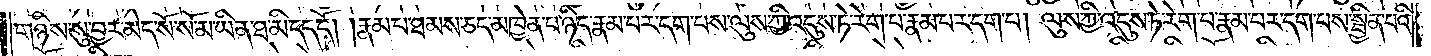གཉིས་སུ་བྱར་མེད་སོ་སོ་མ་ཡིན་ཐ་མི་དད་དོ། །རྣམ་པ་ཐམས་ཅད་མཁྱེན་པ་ཉིད་རྣམ་པར་དག་པས་ལུས་ཀྱི་འདུས་ཏེ་རེག་པ་རྣམ་པར་དག་པ། ལུས་ཀྱི་འདུས་ཏེ་རེག་པ་རྣམ་པར་དག་པས་སྦྱིན་པའི་
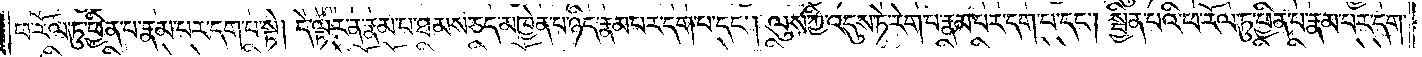ཕ་རོལ་ཏུ་ཕྱིན་པ་རྣམ་པར་དག་པ་སྟེ། དེ་ལྟར་ན་རྣམ་པ་ཐམས་ཅད་མཁྱེན་པ་ཉིད་རྣམ་པར་དག་པ་དང༌། ལུས་ཀྱི་འདུས་ཏེ་རེག་པ་རྣམ་པར་དག་པ་དང༌། སྦྱིན་པའི་ཕ་རོལ་ཏུ་ཕྱིན་པ་རྣམ་པར་དག་
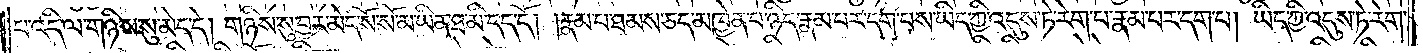པ་འདི་ལ་གཉིས་སུ་མེད་དེ། གཉིས་སུ་བྱར་མེད་སོ་སོ་མ་ཡིན་ཐ་མི་དད་དོ། །རྣམ་པ་ཐམས་ཅད་མཁྱེན་པ་ཉིད་རྣམ་པར་དག་པས་ཡིད་ཀྱི་འདུས་ཏེ་རེག་པ་རྣམ་པར་དག་པ། ཡིད་ཀྱི་འདུས་ཏེ་རེག་
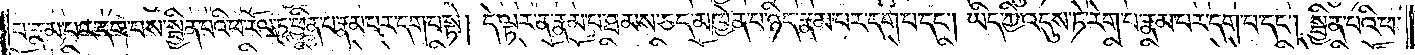པ་རྣམ་པར་དག་པས་སྦྱིན་པའི་ཕ་རོལ་ཏུ་ཕྱིན་པ་རྣམ་པར་དག་པ་སྟེ། དེ་ལྟར་ན་རྣམ་པ་ཐམས་ཅད་མཁྱེན་པ་ཉིད་རྣམ་པར་དག་པ་དང༌། ཡིད་ཀྱི་འདུས་ཏེ་རེག་པ་རྣམ་པར་དག་པ་དང༌། སྦྱིན་པའི་ཕ་
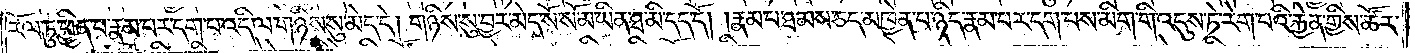རོལ་ཏུ་ཕྱིན་པ་རྣམ་པར་དག་པ་འདི་ལ་གཉིས་སུ་མེད་དེ། གཉིས་སུ་བྱར་མེད་སོ་སོ་མ་ཡིན་ཐ་མི་དད་དོ། །རྣམ་པ་ཐམས་ཅད་མཁྱེན་པ་ཉིད་རྣམ་པར་དག་པས་མིག་གི་འདུས་ཏེ་རེག་པའི་རྐྱེན་གྱིས་ཚོར་
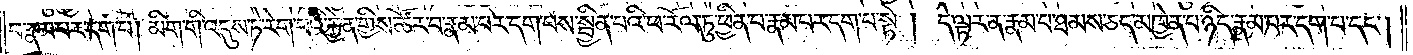བ་རྣམ་པར་དག་པ། མིག་གི་འདུས་ཏེ་རེག་པའི་རྐྱེན་གྱིས་ཚོར་བ་རྣམ་པར་དག་པས་སྦྱིན་པའི་ཕ་རོལ་ཏུ་ཕྱིན་པ་རྣམ་པར་དག་པ་སྟེ། དེ་ལྟར་ན་རྣམ་པ་ཐམས་ཅད་མཁྱེན་པ་ཉིད་རྣམ་པར་དག་པ་དང༌།
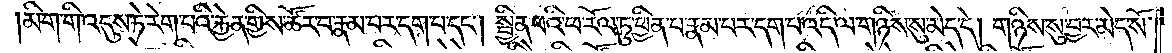མིག་གི་འདུས་ཏེ་རེག་པའི་རྐྱེན་གྱིས་ཚོར་བ་རྣམ་པར་དག་པ་དང༌། སྦྱིན་པའི་ཕ་རོལ་ཏུ་ཕྱིན་པ་རྣམ་པར་དག་པ་འདི་ལ་གཉིས་སུ་མེད་དེ། གཉིས་སུ་བྱར་མེད་སོ་
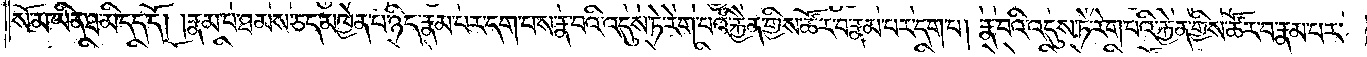སོ་མ་ཡིན་ཐ་མི་དད་དོ། །རྣམ་པ་ཐམས་ཅད་མཁྱེན་པ་ཉིད་རྣམ་པར་དག་པས་རྣ་བའི་འདུས་ཏེ་རེག་པའི་རྐྱེན་གྱིས་ཚོར་བ་རྣམ་པར་དག་པ། རྣ་བའི་འདུས་ཏེ་རེག་པའི་རྐྱེན་གྱིས་ཚོར་བ་རྣམ་པར་
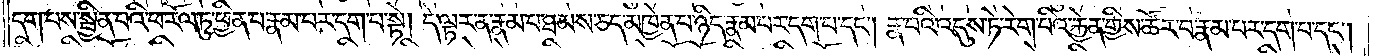དག་པས་སྦྱིན་པའི་ཕ་རོལ་ཏུ་ཕྱིན་པ་རྣམ་པར་དག་པ་སྟེ། དེ་ལྟར་ན་རྣམ་པ་ཐམས་ཅད་མཁྱེན་པ་ཉིད་རྣམ་པར་དག་པ་དང༌། རྣ་བའི་འདུས་ཏེ་རེག་པའི་རྐྱེན་གྱིས་ཚོར་བ་རྣམ་པར་དག་པ་དང༌།
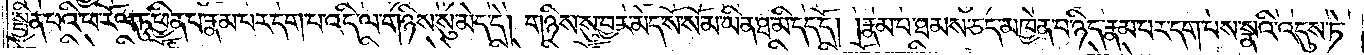སྦྱིན་པའི་ཕ་རོལ་ཏུ་ཕྱིན་པ་རྣམ་པར་དག་པ་འདི་ལ་གཉིས་སུ་མེད་དེ། གཉིས་སུ་བྱར་མེད་སོ་སོ་མ་ཡིན་ཐ་མི་དད་དོ། །རྣམ་པ་ཐམས་ཅད་མཁྱེན་པ་ཉིད་རྣམ་པར་དག་པས་སྣའི་འདུས་ཏེ་
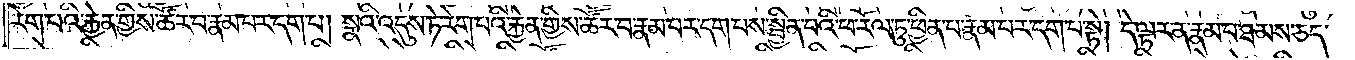རེག་པའི་རྐྱེན་གྱིས་ཚོར་བ་རྣམ་པར་དག་པ། སྣའི་འདུས་ཏེ་རེག་པའི་རྐྱེན་གྱིས་ཚོར་བ་རྣམ་པར་དག་པས་སྦྱིན་པའི་ཕ་རོལ་ཏུ་ཕྱིན་པ་རྣམ་པར་དག་པ་སྟེ། དེ་ལྟར་ན་རྣམ་པ་ཐམས་ཅད་
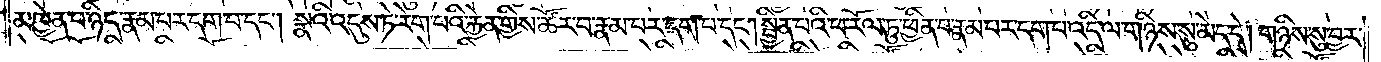མཁྱེན་པ་ཉིད་རྣམ་པར་དག་པ་དང༌། སྣའི་འདུས་ཏེ་རེག་པའི་རྐྱེན་གྱིས་ཚོར་བ་རྣམ་པར་དག་པ་དང༌། སྦྱིན་པའི་ཕ་རོལ་ཏུ་ཕྱིན་པ་རྣམ་པར་དག་པ་འདི་ལ་གཉིས་སུ་མེད་དེ། གཉིས་སུ་བྱར་
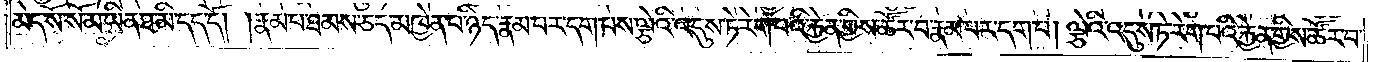མེད་སོ་སོ་མ་ཡིན་ཐ་མི་དད་དོ། །རྣམ་པ་ཐམས་ཅད་མཁྱེན་པ་ཉིད་རྣམ་པར་དག་པས་ལྕེའི་འདུས་ཏེ་རེག་པའི་རྐྱེན་གྱིས་ཚོར་བ་རྣམ་པར་དག་པ། ལྕེའི་འདུས་ཏེ་རེག་པའི་རྐྱེན་གྱིས་ཚོར་བ་
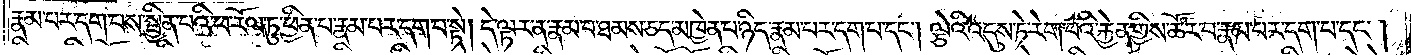རྣམ་པར་དག་པས་སྦྱིན་པའི་ཕ་རོལ་ཏུ་ཕྱིན་པ་རྣམ་པར་དག་པ་སྟེ། དེ་ལྟར་ན་རྣམ་པ་ཐམས་ཅད་མཁྱེན་པ་ཉིད་རྣམ་པར་དག་པ་དང༌། ལྕེའི་འདུས་ཏེ་རེག་པའི་རྐྱེན་གྱིས་ཚོར་བ་རྣམ་པར་དག་པ་དང༌།
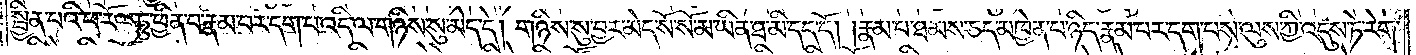སྦྱིན་པའི་ཕ་རོལ་ཏུ་ཕྱིན་པ་རྣམ་པར་དག་པ་འདི་ལ་གཉིས་སུ་མེད་དེ། གཉིས་སུ་བྱར་མེད་སོ་སོ་མ་ཡིན་ཐ་མི་དད་དོ། །རྣམ་པ་ཐམས་ཅད་མཁྱེན་པ་ཉིད་རྣམ་པར་དག་པས་ལུས་ཀྱི་འདུས་ཏེ་རེག་
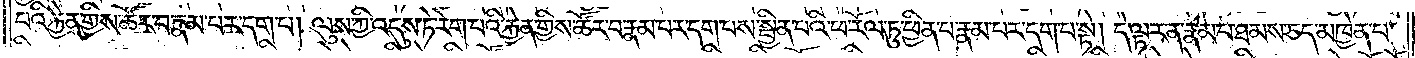པའི་རྐྱེན་གྱིས་ཚོར་བ་རྣམ་པར་དག་པ། ལུས་ཀྱི་འདུས་ཏེ་རེག་པའི་རྐྱེན་གྱིས་ཚོར་བ་རྣམ་པར་དག་པས་སྦྱིན་པའི་ཕ་རོལ་ཏུ་ཕྱིན་པ་རྣམ་པར་དག་པ་སྟེ། དེ་ལྟར་ན་རྣམ་པ་ཐམས་ཅད་མཁྱེན་པ་
